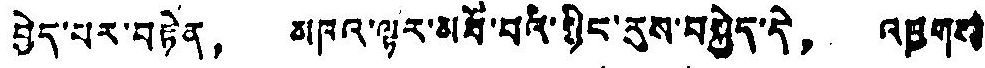བྱེད་པར་བརྟེན， མཁའ་ལྟར་མཐོ་བའི་སྙིང་རུས་བསྐྱེད་དེ， འཁྱགས་
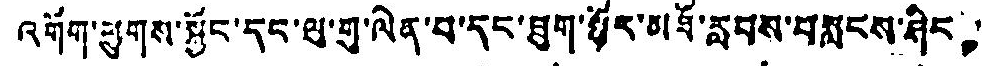འགོག་ཕྱུགས་སྐྱོང་དང་ལུ་གུ་ལེན་པ་དང་ཐུག་སྟོར་མཐོ་རླབས་བསླངས་ཤིང，
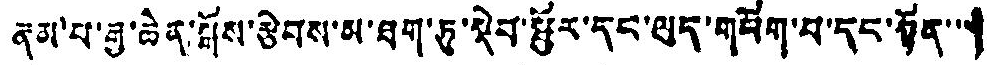རྣམ་པ་རྒྱ་ཆེན་རྒོས་རྩེབས་མ་ཐག་ཏུ་སྡེབ་སྦྱོར་དང་ལུད་གསོག་པ་དང་སྟོན་་་
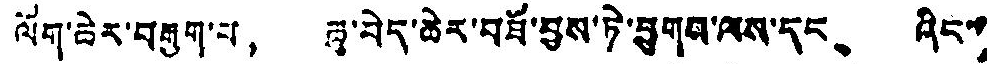ལོག་ཆེར་བརྒྱག་པ， ཆུ་བེད་ཆེར་བཟོ་བྱས་ཏེ་ཕྱུགས་ལས་དང、 ཞིང་་
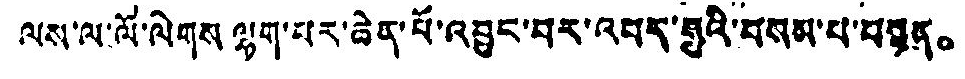ལས་ལ་ལོ་ལེགས ལྷག་པར་ཆེན་པོ་འབྱུང་བར་འབར་རྒྱུའི་བསམ་པ་བསྟན。
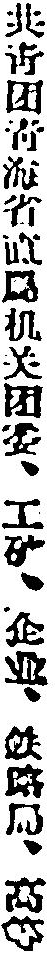共靑团靑海省直屬机关团委、工矿、企业、鉄路局、高等
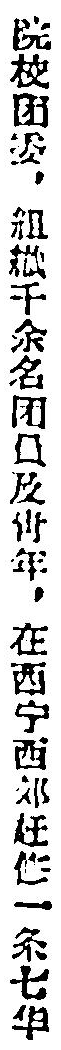员校团委，組織千余名团員及靑年，在西宁西郊赶修一条七华
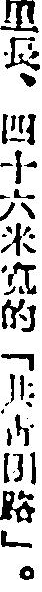里長、四十六米寬的「共靑团路」。
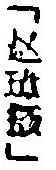「赵瑋摄」
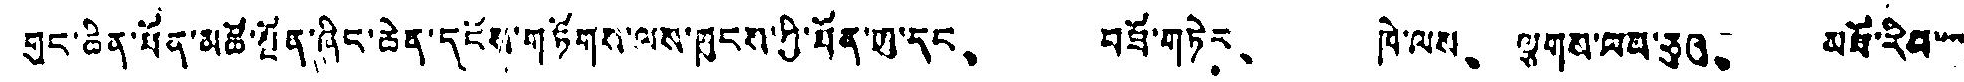གུང་ཆིན་ཐོན་མཚོ་སྔོན་ཞིང་ཆེན་དངོས་གཏོགས་ལས་ཁུངས་ཀྱི་ཐོན་ཡུ་དང、 བཟོ་གཏེར、 ཁེ་ལས、 ལྕགས་ལམ་ཅུའུ、 མཐོ་རིམ་་་་
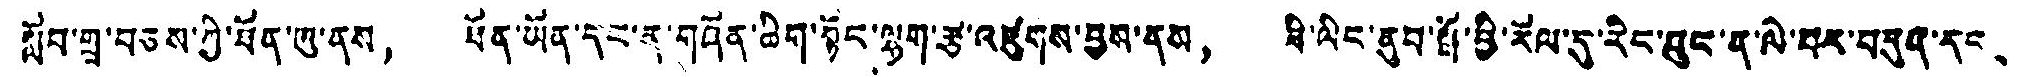སློབ་གྲྭ་བཅས་ཀྱི་ཐོན་ཡུ་ནས， ཐོན་ཡོན་དང་ན་གཞོན་ཆིག་སྟོང་ལྷག་རྩ་འཛུགས་བྱས་ནས， ཟི་ལིང་ནུབ་སྤོ་ཕྱི་རོལ་དུ་རིང་ཐུང་ན་ལེ་པར་བདུན་དང、
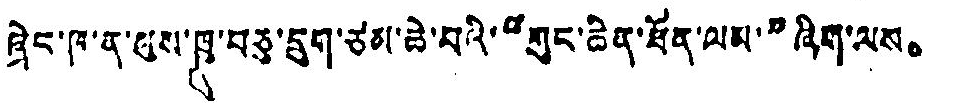ཞེང་ཁ་ན་ཡུས་ཁྲ་བཅུ་དྲུག་ཙམ་ཆེ་བའི་“གུང་ཆིན་ཐོན་ལམ་”ཞིག་ལས。
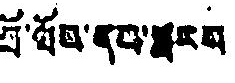ཀྲོ་ལོང་ནས་བླངས
